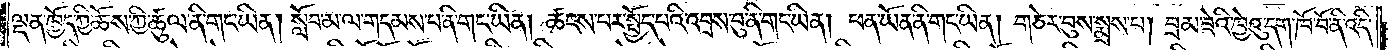ལྡན་ཁྱོད་ཀྱི་ཆོས་ཀྱི་ཚུལ་ནི་གང་ཡིན། སློབ་མ་ལ་གདམས་པ་ནི་གང་ཡིན། ཚངས་པར་སྤྱོད་པའི་འབྲས་བུ་ནི་གང་ཡིན། ཕན་ཡོན་ནི་གང་ཡིན། གཅེར་བུས་སྨྲས་པ། བྲམ་ཟེའི་ཁྱེའུ་དག་ཁོ་བོ་ནི་འདི་
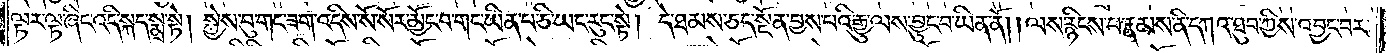ལྟར་ལྟ་ཞིང་འདི་སྐད་སྨྲ་སྟེ། སྐྱེས་བུ་གང་ཟག་འདིས་སོ་སོར་མྱོང་བ་གང་ཡིན་པ་ཅི་ཡང་རུང་སྟེ། དེ་ཐམས་ཅད་སྔོན་བྱས་པའི་རྒྱུ་ལས་བྱུང་བ་ཡིན་ནོ། །ལས་རྙིངས་པ་རྣམས་ནི་དཀའ་ཐུབ་ཀྱིས་འབྱང་བར་
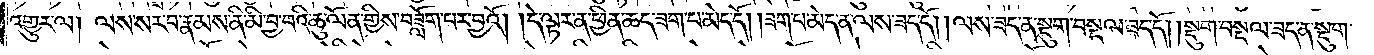འགྱུར་ལ། ལས་སར་བ་རྣམས་ནི་མི་བྱ་བའི་ཆུ་ལོན་གྱིས་བཟློག་པར་བྱའོ། །དེ་ལྟར་ན་ཕྱིན་ཆད་ཟག་པ་མེད་དོ། །ཟག་པ་མེད་ན་ལས་ཟད་དོ། །ལས་ཟད་ན་སྡུག་བསྔལ་ཟད་དོ། །སྡུག་བསྔལ་ཟད་ན་སྡུག་
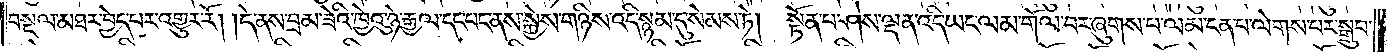བསྔལ་མཐར་བྱེད་པར་འགྱུར་རོ། །དེ་ནས་བྲམ་ཟེའི་ཁྱེའུ་ཉེ་རྒྱལ་དང་པང་ནས་སྐྱེས་གཉིས་འདི་སྙམ་དུ་སེམས་ཏེ། སྟོན་པ་ཤེས་ལྡན་འདི་ཡང་ལམ་གོལ་བར་ཞུགས་པ་ལམ་ངན་པ་ལེགས་པར་སྒྲུབ་
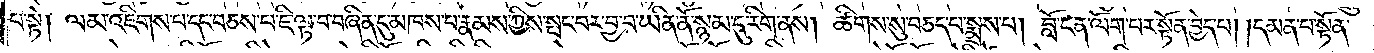པ་སྟེ། ལམ་འཇིགས་པ་དང་བཅས་པ་ཇི་ལྟ་བ་བཞིན་དུ་མཁས་པ་རྣམས་ཀྱིས་སྤང་བར་བྱ་བ་ཡིན་ནོ་སྙམ་དུ་རིག་ནས། ཚིགས་སུ་བཅད་པ་སྨྲས་པ། བློ་ངན་ལོག་པར་སྟོན་བྱེད་པ། །དམན་པ་སྟོན་
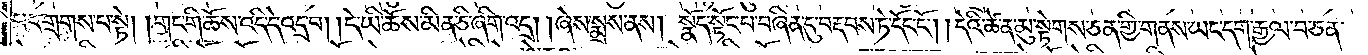པར་གྲགས་པ་སྟེ། །གང་གི་ཆོས་འདི་དེ་འདྲ་བ། །དེ་ཡི་ཆོས་མིན་ཅི་ཞིག་འདྲ། །ཞེས་སྨྲས་ནས། སྣོད་སྟོང་པ་བཞིན་དུ་བརྡབས་ཏེ་དོང་ངོ༌། །དེའི་ཚེ་ན་མུ་སྟེགས་ཅན་གྱི་གནས་ཡང་དག་རྒྱལ་བ་ཅན་
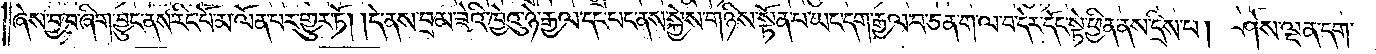ཞེས་བྱ་བ་ཞིག་བྱུང་ནས་རིང་པོ་མ་ལོན་པར་གྱུར་ཏོ། །དེ་ནས་བྲམ་ཟེའི་ཁྱེའུ་ཉེ་རྒྱལ་དང་པང་ནས་སྐྱེས་གཉིས་སྟོན་པ་ཡང་དག་རྒྱལ་བ་ཅན་ག་ལ་བ་དེར་དོང་སྟེ་ཕྱིན་ནས་དྲིས་པ། ཤེས་ལྡན་དག་
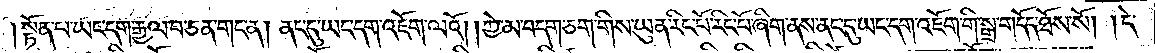སྟོན་པ་ཡང་དག་རྒྱལ་བ་ཅན་གང་ན། ནང་དུ་ཡང་དག་འཇོག་ལའོ། །ཀྱེ་མ་བདག་ཅག་གིས་ཡུན་རིང་པོ་རིང་པོ་ཞིག་ནས་ནང་དུ་ཡང་དག་འཇོག་གི་སྒྲ་གདོད་ཐོས་སོ། །དེ་
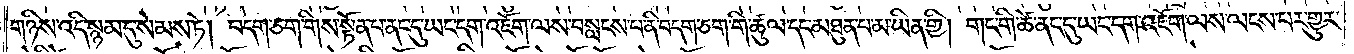གཉིས་འདི་སྙམ་དུ་སེམས་ཏེ། བདག་ཅག་གིས་སྟོན་པ་ནང་དུ་ཡང་དག་འཇོག་ལས་བསླངས་པ་ནི་བདག་ཅག་གི་ཚུལ་དང་མཐུན་པ་མ་ཡིན་གྱི། གང་གི་ཚེ་ནང་དུ་ཡང་དག་འཇོག་ལས་ལངས་པར་གྱུར་
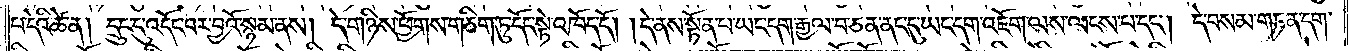པ་དེའི་ཚེ་ན། དྲུང་དུ་འདོང་བར་བྱའོ་སྙམ་ནས། དེ་གཉིས་ཕྱོགས་གཅིག་ཏུ་དོང་སྟེ་འཁོད་དོ། །དེ་ནས་སྟོན་པ་ཡང་དག་རྒྱལ་བ་ཅན་ནང་དུ་ཡང་དག་འཇོག་ལས་ལངས་པ་དང༌། དེ་བསམ་གཏན་དག་
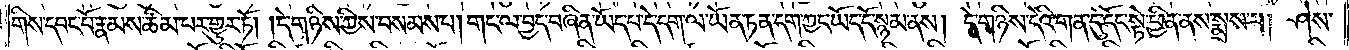གིས་དབང་པོ་རྣམས་ཚིམ་པར་གྱུར་ཏོ། །དེ་གཉིས་ཀྱིས་བསམས་པ། གང་ལ་བྱད་བཞིན་ཡོད་པ་དེ་དག་ལ་ཡོན་ཏན་དག་ཀྱང་ཡོད་དོ་སྙམ་ནས། དེ་གཉིས་དེའི་གན་དུ་དོང་སྟེ་ཕྱིན་ནས་སྨྲས་པ། ཤེས་
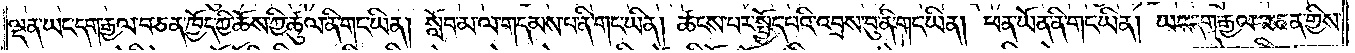ལྡན་ཡང་དག་རྒྱལ་བ་ཅན་ཁྱོད་ཀྱི་ཆོས་ཀྱི་ཚུལ་ནི་གང་ཡིན། སློབ་མ་ལ་གདམས་པ་ནི་གང་ཡིན། ཚངས་པར་སྤྱོད་པའི་འབྲས་བུ་ནི་གང་ཡིན། ཕན་ཡོན་ནི་གང་ཡིན། ཡང་དག་རྒྱལ་བ་ཅན་གྱིས་
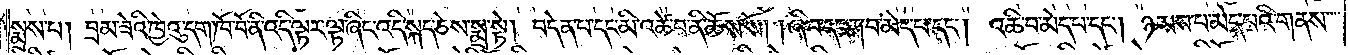སྨྲས་པ། བྲམ་ཟེའི་ཁྱེའུ་དག་ཁོ་བོ་ནི་འདི་ལྟར་ལྟ་ཞིང་འདི་སྐད་ཅེས་སྨྲ་སྟེ། བདེན་པ་དང་མི་འཚེ་བ་ནི་ཆོས་སོ། །ཞི་བ་དང་རྒ་བ་མེད་པ་དང༌། འཆི་བ་མེད་པ་དང༌། ཉམས་པ་མེད་པའི་གནས་
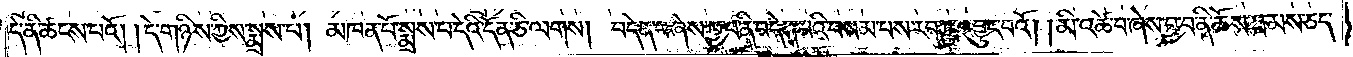དེ་ནི་ཚངས་པའོ། །དེ་གཉིས་ཀྱིས་སྨྲས་པ། མཁན་པོ་སྨྲས་པ་དེའི་དོན་ཅི་ལགས། བདེན་པ་ཞེས་བྱ་བ་ནི་བདེན་པའི་བསམ་པས་རབ་ཏུ་འབྱུང་བའོ། །མི་འཚེ་བ་ཞེས་བྱ་བ་ནི་ཆོས་ཐམས་ཅད་
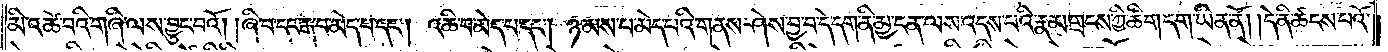མི་འཚེ་བའི་གཞི་ལས་བྱུང་བའོ། །ཞི་བ་དང་རྒ་བ་མེད་པ་དང༌། འཆི་བ་མེད་པ་དང༌། ཉམས་པ་མེད་པའི་གནས་ཤེས་བྱ་བ་དེ་དག་ནི་མྱ་ངན་ལས་འདས་པའི་རྣམ་གྲངས་ཀྱི་ཚིག་དག་ཡིན་ནོ། །དེ་ནི་ཚངས་པའོ་
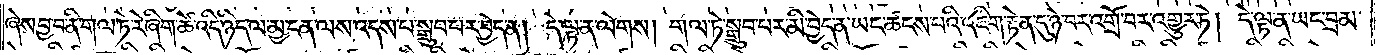ཞེས་བྱ་བ་ནི་གལ་ཏེ་རེ་ཞིག་ཚེ་འདི་ཉིད་ལ་མྱ་ངན་ལས་འདས་པ་སྒྲུབ་པར་བྱེད་ན། དེ་ལྟ་ན་ལེགས། གལ་ཏེ་སྒྲུབ་པར་མི་བྱེད་ན་ཡང་ཚངས་པའི་འཇིག་རྟེན་དུ་ཉེ་བར་འགྲོ་བར་འགྱུར་ཏེ། དེ་ལྟ་ན་ཡང་བྲམ་
